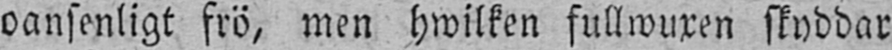oansenligt frö, men hwilken fullwuxen skyddar
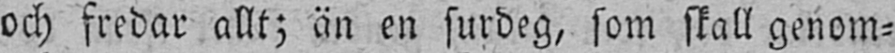och fredar allt; än en surdeg, som skall genom-
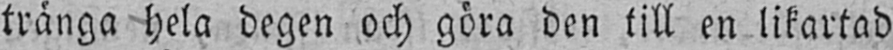tränga hela degen och göra den till en likartad
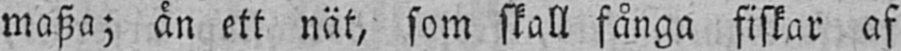masza; än ett nät, som skall fånga fiskar af
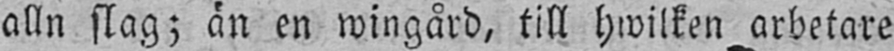alln slag; än en wingård, till hwilken arbetare
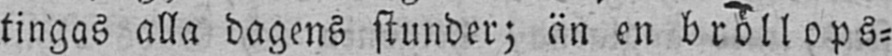tingas alla dagens stunder; än en bröllops-
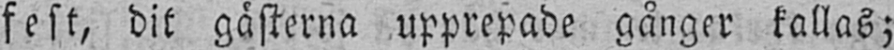fest, dit gästerna upprepade gånger kallas;
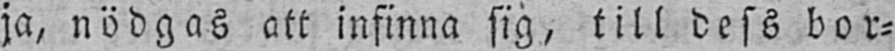ja, nödgas att infinna sig, till dess bor-
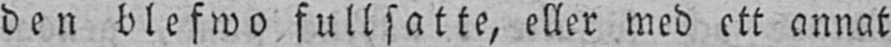den blefwo fullsatte, eller med ett annat
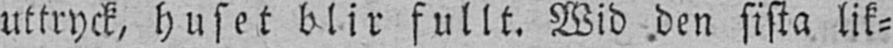uttryck, huset blir fullt. Wid den sista lik-
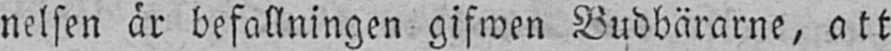nelsen är befallningen gifwen Budbärarne, att
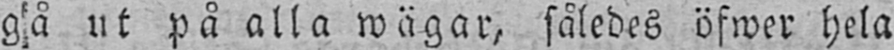gå ut på alla wägar, således öfwer hela
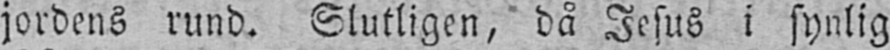jordens rund. Slutligen, då Jesus i synlig
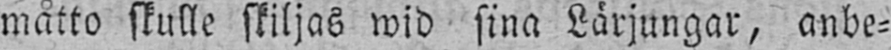måtto skulle skiljas wid sina Lärjungar, anbe-
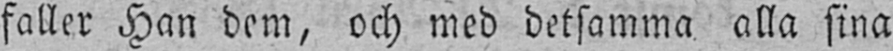faller Han dem, och med detsamma alla sina
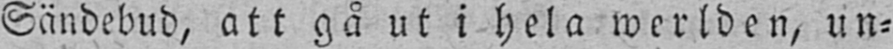Sändebud, att gå ut i hela werlden, un-
